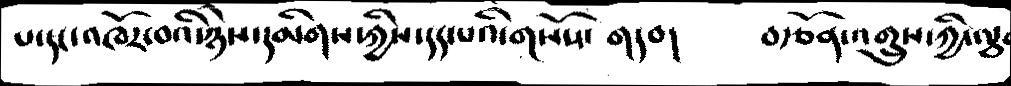པ་དང་འཁོར་བའི་ཉེས་དམིགས་ཀྱིས་དད་པའི་གསོས་གདབ།   བརྩོན་འགྲུས་ཀྱི་ལྕག
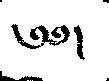༄༅།
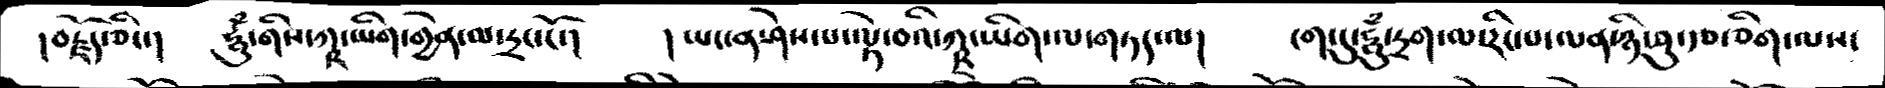།བརྗོད་ཅིང་།  ཧཱུྃ་གིས་ཀྵ་ཡིག་གྱེན་ལ་དྲང་ངོ་།  །ཡང་ན་ཤེས་པ་ལྟེ་བའི་ཀྵ་ཡིག་ལ་གཏད་ལ།  ངག་དུ་ཧཱུྃ་དྲག་ལ་རིང་པ་ལན་ཉི་ཤུ་རྩ་ཅིག་ལས་
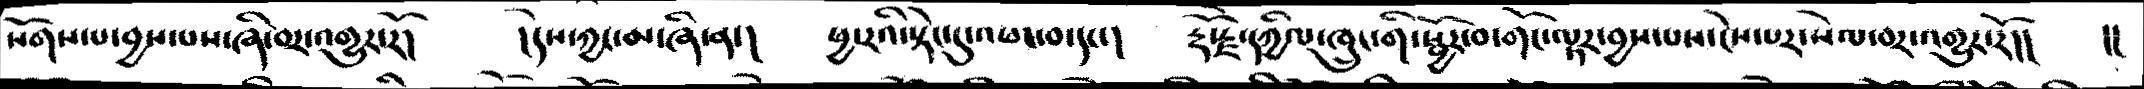སོགས་པ་བྱས་པས་ཞི་བར་འགྱུར་རོ།  །དེས་ཀྱང་མ་ཞི་ན་།  ཕྱ་རའི་སྟེང་དུ་འཕང་བ་དང་།  རྡོ་རྗེ་དཀྱིལ་ཁྲུང་གི་སྦྱོར་བ་གོང་ལྟར་བྱས་པས་ངེས་པར་སེལ་བར་འགྱུར་རོ།།  །།
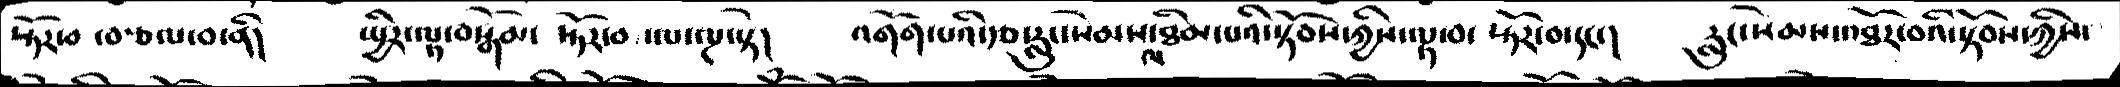སྟོར་བ་བརྩལ་བ་ནི།  སྤྱིར་ལྟ་བསྒོམ་སྟོར་བ་ལ་ལྔ་སྟེ།  འགོག་པའི་རྩ་རླུང་སེམས་ལ་ཐིམ་པའི་སྟོབས་ཀྱིས་ལྟ་བ་སྟོར་བ་དང་།  རླུང་སེམས་འཐོར་བའི་སྟོབས་ཀྱིས་
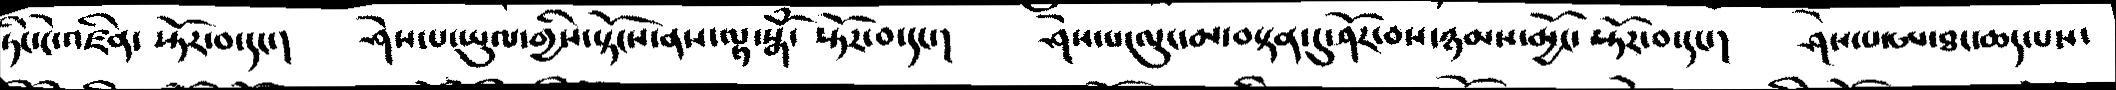ཏིང་ངེ་འཛིན་ སྟོར་བ་དང་།   ཤེས་པ་ཡུལ་གྱིས་སྟོངས་ནས་ལྟ་སྒོཾ་ སྟོར་བ་དང་།   ཤེས་པ་ལུང་མ་བསྟན་དུ་ཤོར་བས་ཉམས་མྱོང་སྟོར་བ་དང་།  ཤེས་པ་ཨ་ཐང་ཆད་པས་
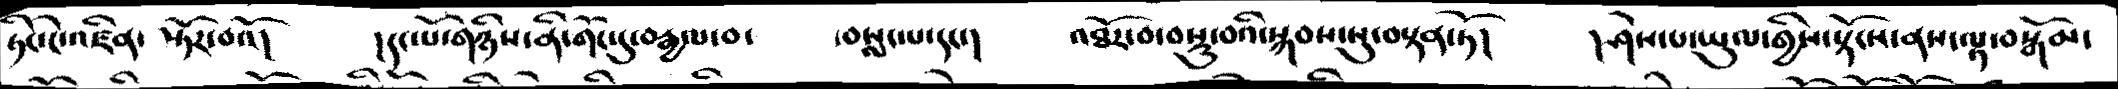ཏིང་ངེ་འཛིན་སྟོར་བའོ།   །དང་པོ་གཉིས་ནི་གོང་དུ་བརྒྱལ་བ་  བསླང་པ་དང་།   འཐོར་བ་བསྡུ་བའི་སྐབས་སུ་བསྟན་ཏོ།   །ཤེས་པ་ཡུལ་གྱིས་སྟོངས་ནས་ལྟ་བསྒོམ་
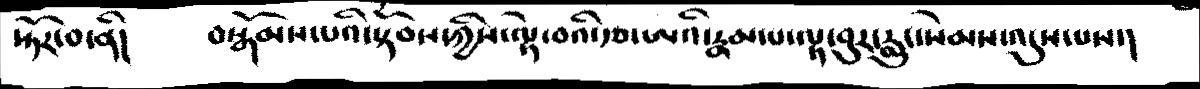སྟོར་བ་ནི།   བསྒོམས་པའི་སྟོབས་ཀྱིས་ལྟེ་བའི་རྩ་ཨའི་རྣམ་པ་ལྟ་བུར་རླུང་སེམས་འདུས་པས་།
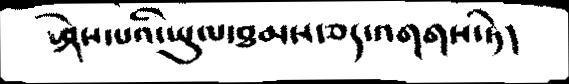ཤེས་པའི་ཡུལ་ཐམས་ཅད་འགགས་ཏེ།
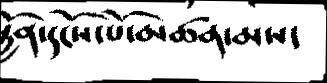སྐྱོན་དངོས་པོ་མཚན་མས་
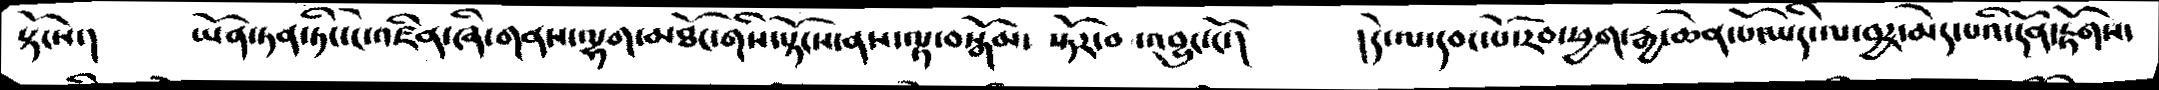སྟོངས་།  ཡོན་ཏན་ཏིང་ངེ་འཛིན་ཞི་གནས་ལྷག་མཐོང་གིས་སྟོངས་ནས་ལྟ་བསྒོམ་སྟོར་བ་འབྱུང་ངོ་།  །དེ་ལ་དབང་པོ་རང་ཕྱག་རྒྱ་ཆེན་པོ་ཡིད་ལ་བྱར་མེད་པའི་དོན་རྟོགས་
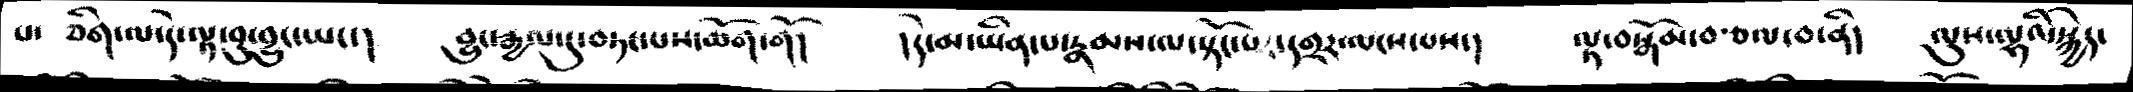པ་ཅིག་ལ་དེ་ལྟ་བུ་བྱུང་ཡང་།  བྱུང་རྒྱལ་དུ་བཏང་པས་ཆོག་གོ།  །དེ་མ་ཡིན་པ་རྣམས་ལ་སྟོང་པར་དགྲར་ལངས་པས་།  ལྟ་བསྒོམ་བརྩལ་བ་ནི།  ལུས་ལྷའི་སྐྱེད་
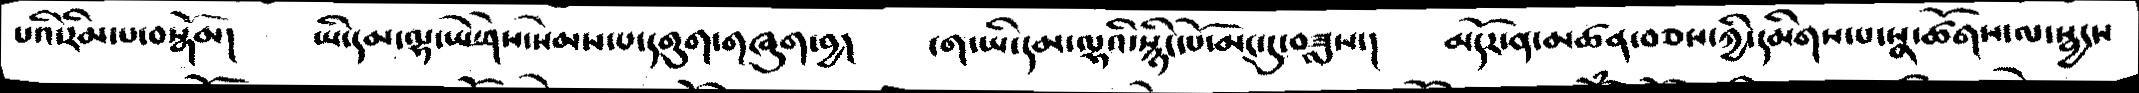པའི་རིམ་པ་བསྒོམ།   ཡི་དམ་ལྷ་ཡེ་ཤེས་སེམས་པ་དགུག་གཞུག་བྱ།   ངག་ཡི་དམ་ལྷའི་སྙིང་པོ་མང་དུ་བཟླས་།   མདོར་ན་མཚན་བཅས་ཀྱི་དམིགས་པ་སྣ་ཚོགས་ལ་སྦྱངས
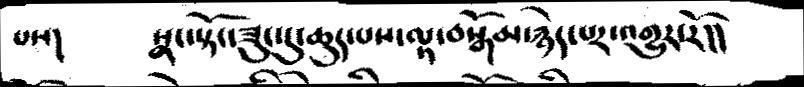པས།   སྣང་སྟོང་ཟུང་དུ་ཆུད་པས་ལྟ་བསྒོམ་རྙེད་པར་འགྱུར་རོ།།
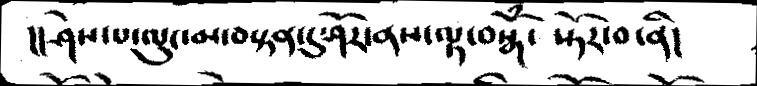།།ཤེས་པ་ལུང་མ་བསྟན་དུ་ཤོར་ནས་ལྟ་བསྒོཾ་ སྟོར་བ་ནི།
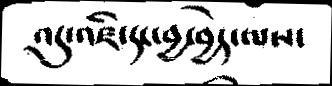འདུ་ཛི་དང་བྱ་བྱེད་ལས་
